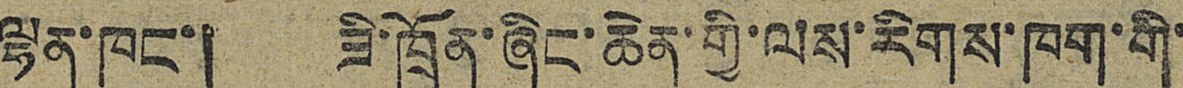ལྷན་ཁང་། ཟི་ཁྲོན་ཞིང་ཆེན་གྱི་ལས་རིགས་ཁག་གི་
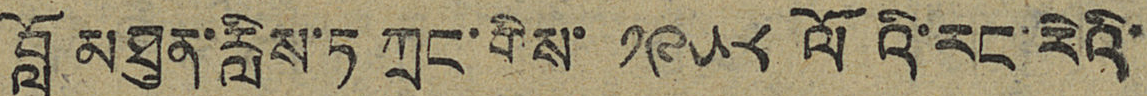བློ མཐུན་རླིས་ཏ ཀྲང་གིས་ ༡༩༥༩ ལོའི་རང་རེའི་
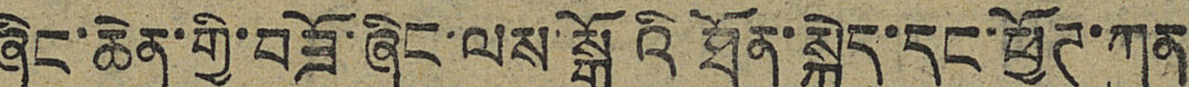ཞིང་ཆེན་གྱི་བཟོ་ཞིང་ལས་སྒོའི ཐོན་སྐྱེད་དང་ཕྱོཊ་ཀུན
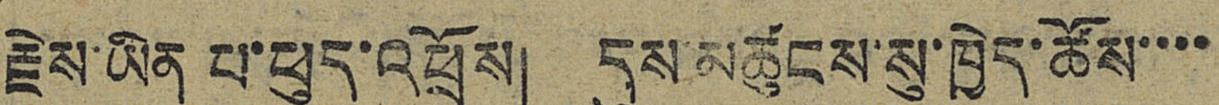རྗེས་ཡིན པ་ཕུད་འཕྲོས། དུས་མཚུངས་སུ་ཁྱེད་ཚོས་་་་
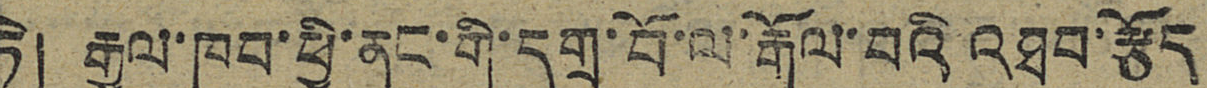ཏེ། རྒྱལ་ཁབ་ཕྱི་ནང་གི་དགྲ་བོ་ལ་རྒོལ་བའི་འཐབ་རྩོད
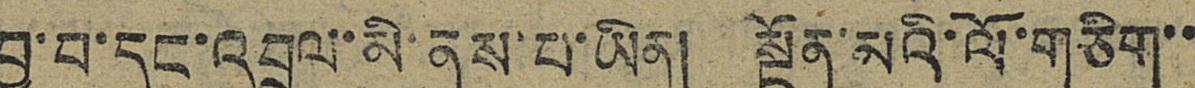བྱ་བ་དང་འབྲལ་མི་ནུས་པ་ཡིན། སྔོན་མའི་ལོ་གཅིག་་
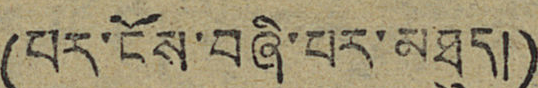(པར་ངོས་བཞི་པར་མཐུད།)
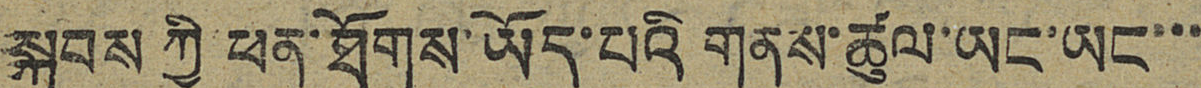སྐབས ཀྱི ཕན ཐོགས་ཡོད་པའི གནས་ཚུལ་ཡང་ཡང་་་
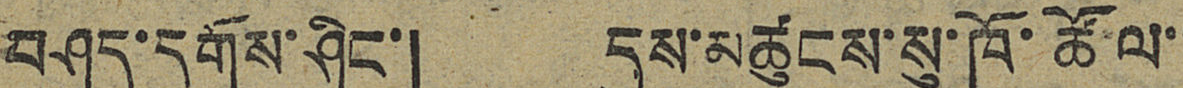བཤད་དགོས་ཤིང་། དུས་མཚུངས་སུ་ཁོ་ཚོ་ལ་་
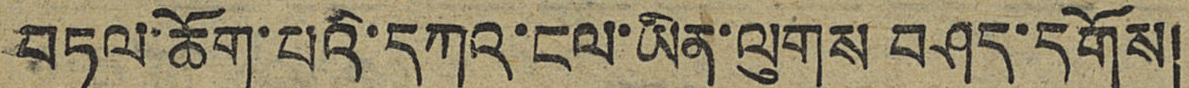བཏུལ་ཆོག་པའི་དཀའ་ངལ་ཡིན་ལུགས བཤད་དགོས།
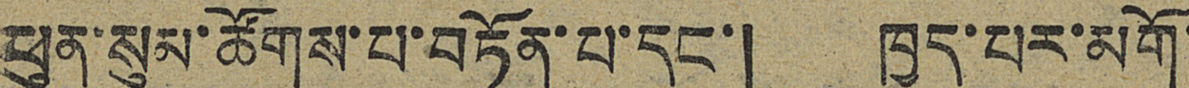ཕུན་སུམ་ཚོགས་པ་བཏོན་པ་དང་། ཁྱད་པར་མགོ་
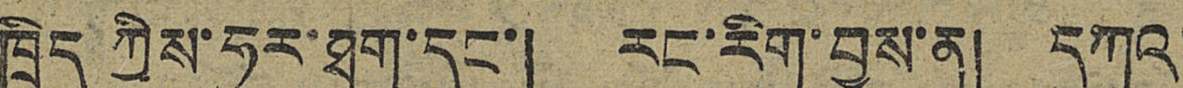ཁྲིད ཀྱིས་ཧུར་ཐག་དང་། རང་ཏིག་བྱས་ན། དཀའ་
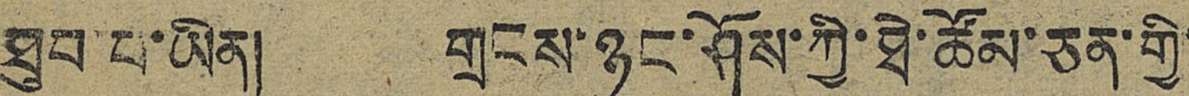ཐུབ་པ་ཡིན། གྲངས་ཉུང་ཤོས་ཀྱི་ཐེ་ཚོམ་ཅན་གྱི་
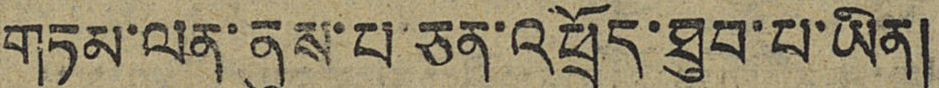གཏམ་ལན་ནུས་པ་ཅན་འཕྲོད་ཐུབ་པ་ཡིན།
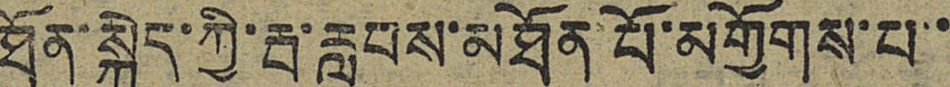ཐོན་སྐྱེད་ཀྱི་རྦ་རླབས་མཐོན པོ་མགྱོགས་པ་་
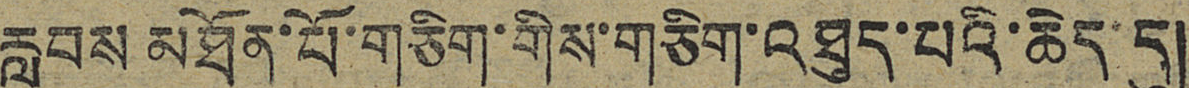རླབས མཐོན་པོ་གཅིག་གིས་གཅིག་འཐུད་པའི་ཆེད་དུ།
